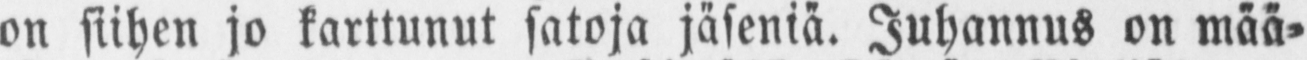on siihen jo karttunut satoja jäseniä. Juhannus on mää-
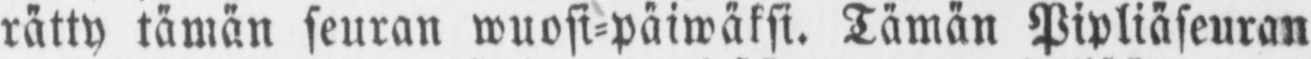rätty tämän seuran wuosi-päiwäksi. Tämän Pipliäseuran
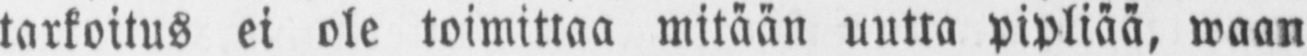tarkoitus ei ole toimittaa mitään uutta pipliää, waan
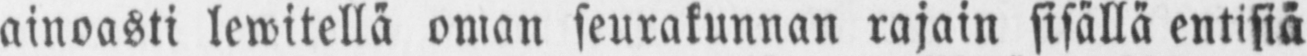ainoasti lewitellä oman seurakunnan rajain sisällä entisiä
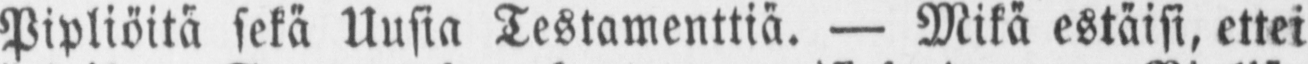Pipliöitä sekä Uusia Testamenttiä. — Mikä estäisi, ettei
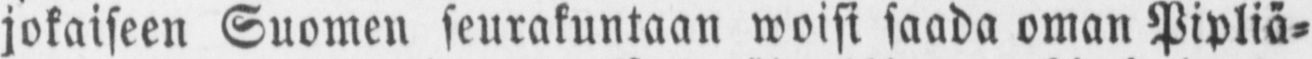jokaiseen Suomen seurakuntaan woisi saada oman Pipliä-
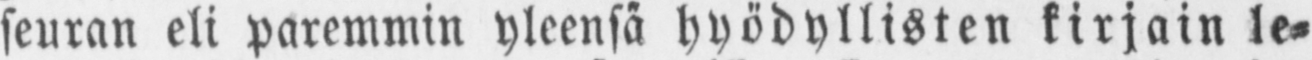seuran eli paremmin yleensä hyödyllisten kirjain le-
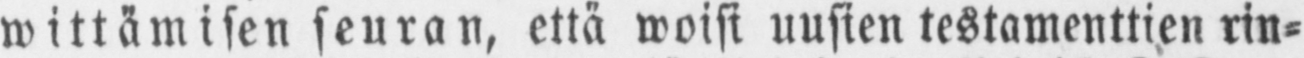wittämisen seuran, että woisi uusien testamenttien rin-
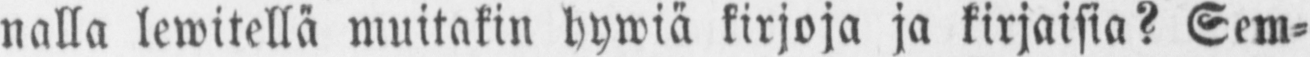nalla lewitellä muitakin hywiä kirjoja ja kirjaisia? Sem-
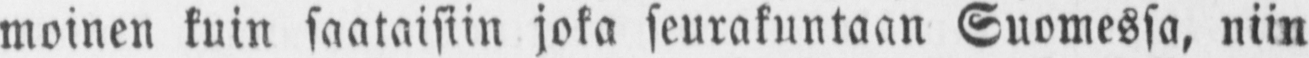moinen kuin saataisiin joka seurakuntaan Suomessa, niin
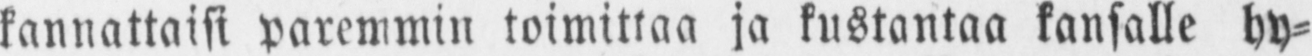kannattaisi paremmin toimittaa ja kustantaa kansalle hy-
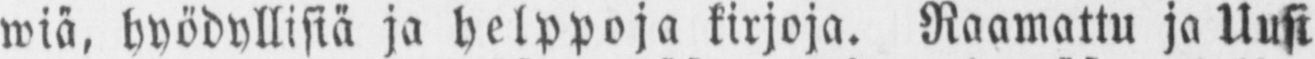wiä, hyödyllisiä ja helppoja kirjoja. Raamattu ja Uusi
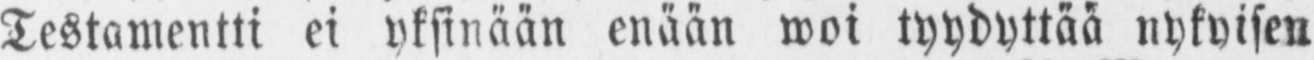Testamentti ei yksinään enään woi tyydyttää nykyisen
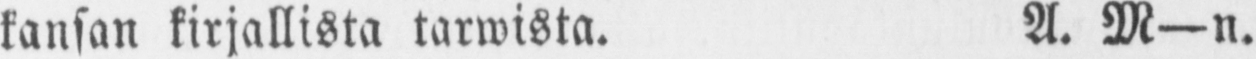kansan kirjallista karwista. A. M—n.
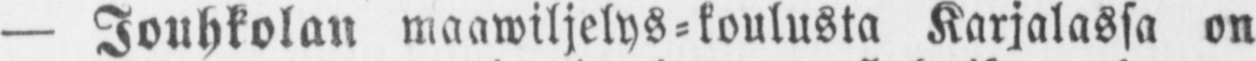— Jouhkolan maawiljelys-koulusta Karjalassa on
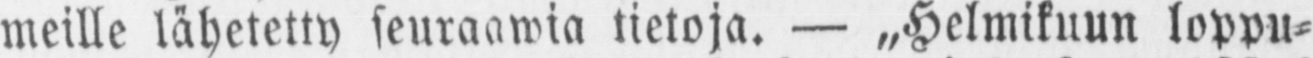meille lähetetty seuraawia tietoja. — „Helmikuun loppu-
